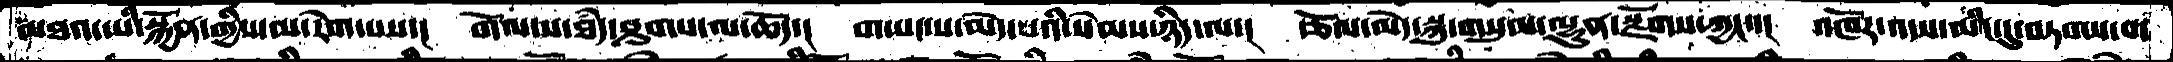མཐའ་ཡི་སྐྱོན་གྱིས་མ་རེག་པས་།  གོལ་ས་ཐཾད་ཤུགས་ལ་ཆོད་།  གཡང་ས་མེད་པའི་སེམས་ཉིད་ལ་།  རྩོལ་མེད་སྐུ་གསུམ་ལྷུན་སྫོགས་ཀྱང་་།  འཁོར་འདས་མིང་དུ་བཏགས་པ་
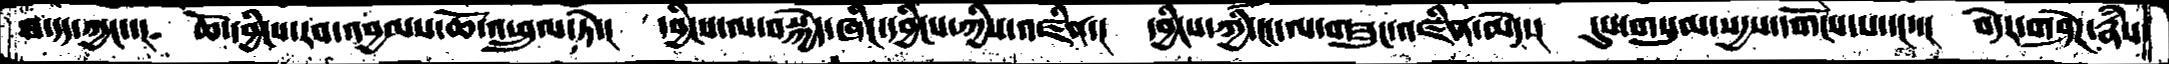ཐ་དད་ཀྱང་་།  ཆོ་དབྱིངས་རབ་འབྱམས་ཆོ་འཕྲུལ་ཏེ་།  དབྱིངས་ལ་བསྐྱེད་ཞིང་དབྱིངས་ཀྱིས་འཛིན་།  དབྱིངས་ཀྱིི་ངང་ལ་གཟུང་འཛིན་མེད་།  དུས་གསུམ་སདྱས་དགོངས་པ་དང་་།  བདེར་གཤེཌ་རྣཾས་
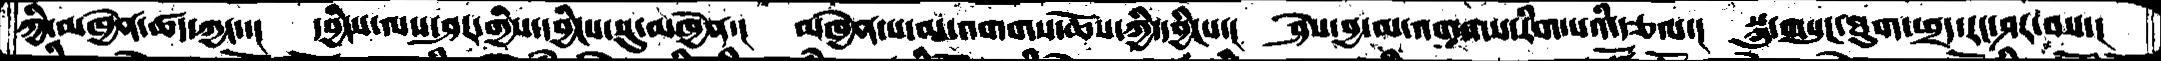ཀྱི་མཁྱེན་ཚད་ཀྱང་་།  དབྱིངས་ལས་ཤར་གྱིས་དབྱིངས་སུ་མཁྱེན་།   མཁྱེན་པ་མ་འགགས་ཆོས་ཀྱི་དབྱིངས་།  ཤེས་བྱ་མ་འགགས་རིག་པའི་རྩལ་།   སྐུ་གསུང་ཐུག་ཕྲད་རང་ཤར་བས་།
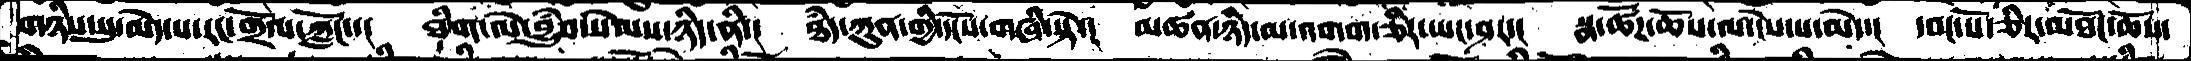གཉིས་སུ་མེད་པ་རང་གྲོལ་ཀློང་་།  ཐིག་ལེ་བྱུཾབ་སེམས་ཉིད་ནི་།  ཐཾད་ཀུན་གྱི་དངོས་གཞི་སྟེ་།  མཚན་ཉིད་མ་འགག་ཅིར་ཡང་ཤར་།  སྣ་ཚོཌ་ཆོས་ལ་ངེས་པ་མེད་།  དབང་པོ་ཅིར་མཐོང་ཆོས་
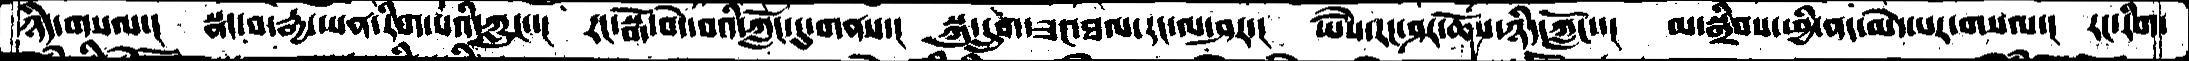ཉིད་གསལ་།   སྣང་བ་རྒྱ་ཡན་རིག་པའི་ཀླུང་་།  རང་སྒོ་བདེ་བའི་ཀློང་དུ་གནས་།  སྐུ་དྲུག་ཟང་ཐལ་རང་ལ་ཤར་།  ཡཻས་རང་ཤར་ཆོས་ཉིད་ཀློང་་།  མ་སྒྲིབས་ཕྱི་ནང་མེད་པར་གསལ་།  རང་རིག་
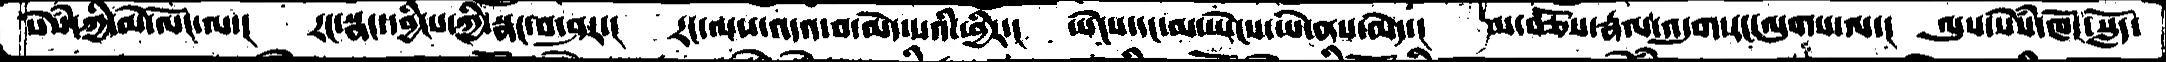སེཾས་ཀྱི་མེ་ལོང་ལ་།   རང་སྣང་དབྱིངས་ཀྱི་སྣང་བ་ཤར་།  རང་ལས་འདའ་བ་མེད་པའི་ཕྱིར་།  ཡེངས་དང་མ་ཡེངས་ཡེ་ནས་མེད་།  མ་བཅོས་རྣལ་འདུག་རང་ལུགས་ལ་།  ལུས་སེཾས་ཁོང་སློད་
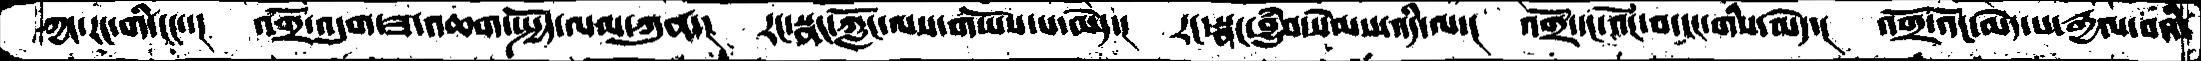ཀྱང་རང་གི་ངང་་།  འགྲོ་འདུག་ཟ་འཆག་སྤྱོད་ལམ་ཀུན་།  རང་སྣང་ཀློང་ལས་གཡོས་པ་མེད་།  རང་སྣང་བྱུཾབ་སེམས་འདི་ལ་།  འགྲོ་དང་འོང་བ་ངང་གིས་མེད་།  འགྲོ་འོང་མེད་པ་རྒྱལ་བའི་
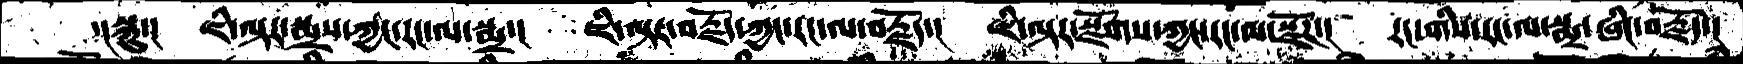་།སྐུ་།  ཇི་ལྟར་སྨྲས་ཀྱང་རང་ལ་སྨྲ་།  ཇི་ལྟར་བརྗོད་ཀྱང་རང་ལ་བརྗོད་།  ཇི་ལྟར་སྫོགས་ཀྱང་རང་ལ་སྫོཌ་།  རང་གིས་རང་ལ་སྨྲ་ཞིང་བརྗོད་།
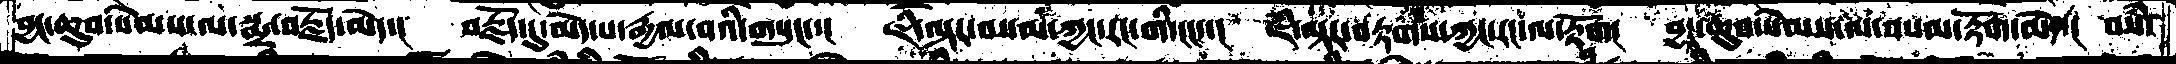བྱང་ཆུབ་སེམས་ལ་སྨྲ་བརྗོད་མེད་།  བརྗོད་དུ་མེད་པ་རྒྱལ་བའི་གསུང་་།  ཇི་ལྟར་བསམ་ཀྱང་རང་གི་ངང་་།  ཇི་ལྟར་བརྟགས་ཀྱང་རང་ལ་རྟོག།  བྱང་ཆུབ་སེམས་ལ་བསལ་རྟོག་མེད་།  བསཾ་
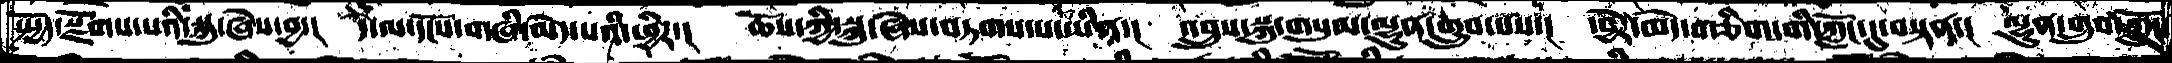སྤྱོད་སྫོགས་པའི་སྐུ་ཞེས་བྱ་།  དེ་ལ་དངོས་གཞི་མེད་པའི་ཕྱིར་། ཆོས་ཀྱི་སྐུ་ཞེས་བཏགས་པ་ཡིན་།  འབྲུས་སྐུ་གསུམ་ལྷུན་གྲུབ་པས་།  དབྱེར་མེད་གཅིག་གི་ཀློང་དུ་བསྟན་།  ལྷུན་གྲུབ་ཀློང་
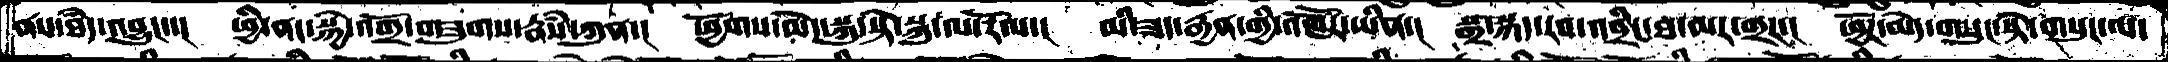ནསཐཾད་འབྱུང་་།  ཕྱི་ནང་སྐྱེ་འགྲོ་གཟུགས་རྣཾས་ཀུན་།  ཕྱོགས་མེད་སྐུ་སྟེ་སྐུ་ལ་རོལ་།  མི་ཟད་རྒྱན་གྱི་འཁཽར་ཡིན་།  སྒྲ་སྐད་རབ་འབྲིང་ཐ་མར་གྲཌ་།  ཕྱོཌ་མེད་གསུང་སྟེ་གསུང་ལ་
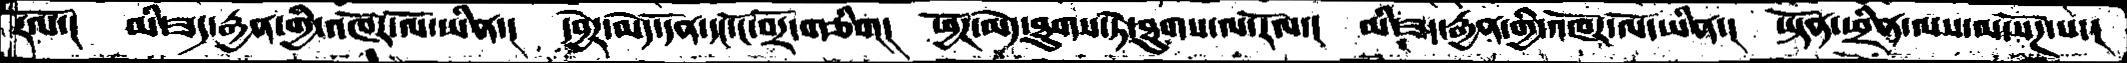རོལ་།  མི་ཟད་རྒྱན་གྱི་འཁོར་ལོ་ཡིན་།  དབྱེར་མེད་དོན་དང་ངོ་བོར་གཅིག།  ཕྱོཌ་མེད་ཐུགས་ཏེ་ཐུགས་ལ་རོལ་།  མི་ཟད་རྒྱན་གྱི་འཁོར་ལོ་ཡིན་།  ཡྟོན་ཕྲིན་ལས་ལ་སོཌ་པ་།
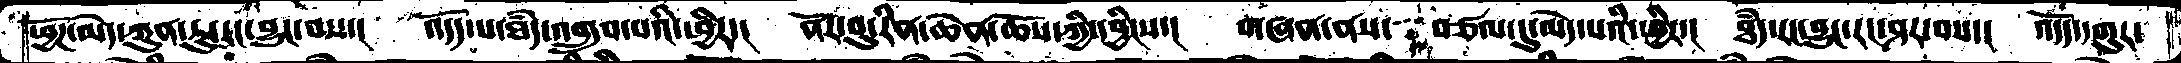ཕྱོཌ་མེད་ཀུན་ཏུ་རང་བྱུང་བས་།  འདོད་པ་ཐཾད་འགྲུབ་པའི་ཕྱིར་།  ནོར་བུ་རིན་ཆེན་ཆོས་ཀྱི་དབྱིངས་།  གཞན་ནས་བཙལ་དུ་མེད་པའི་ཕྱིར་།  ཐཾད་རང་བྱུང་རང་ཤར་བས་།  འདོད་དགུར་
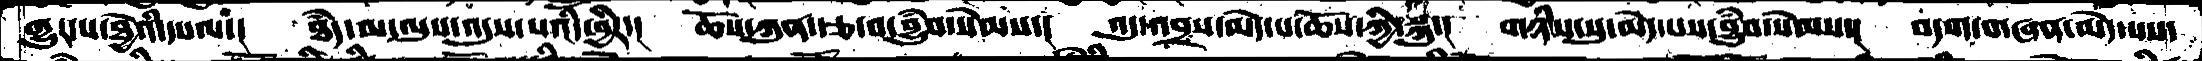གྱུར་པ་ཐྱེའི་དཔལ་།  ཐཾད་མ་ལུས་འདུས་པའི་ཕྱིར་།  ཆོས་ཀུན་རྩ་བ་བྱུཾབ་སེམས་།  འདུ་འབྲས་མེད་པ་ཆོས་ཀྱི་སྐུ་།  གཉིས་སུ་མེད་པས་བྱུཾབ་སེམས་།  བདག་གཞན་མེད་པས་
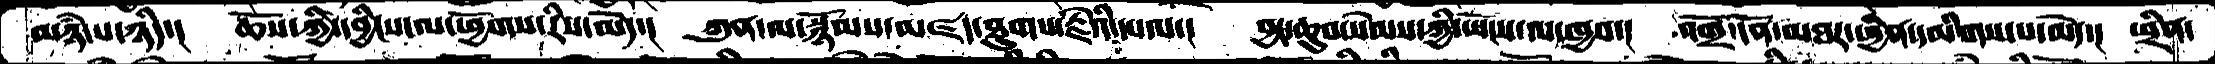མཉཾ་པ་ཉིད་།  ཆོས་ཀྱི་དབྱིངས་ལ་ཕྱོགས་རིས་མེད་།  ཀུན་ལ་སྙོམས་མཛད་ཐུགས་རྗེའི་དཔལ་།  བྱང་ཆུབ་སེམས་ཀྱི་ཡོངས་ལ་ཁྱབ་།  འགྲོ་དོན་མཐར་ཕྱིན་དམིགས་པ་མེད་།  ཕྲིན་
